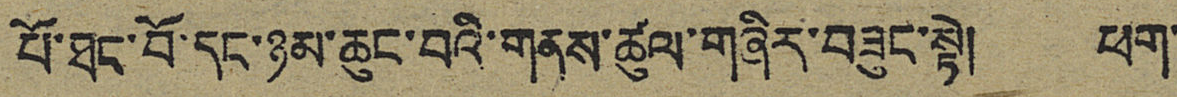པོ་ཐང་བོ་དང་ཉམ་ཆུང་བའི་གནས་ཚུལ་གཞིར་བཟུང་སྟེ། ཕག་
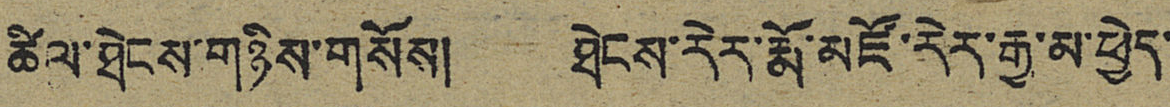ཚིལ་ཐེངས་གཉིས་གསོས། ཐེངས་རེར་རྨོ་མཛོ་རེར་རྒྱ་མ་ཕྱེད་
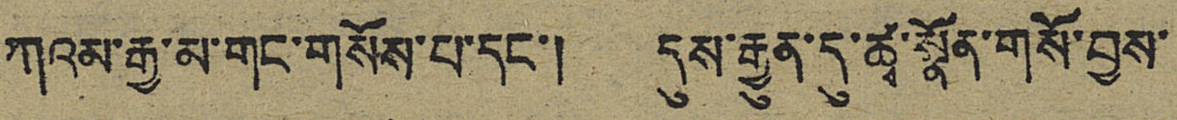ཀའམ་རྒྱ་མ་གང་གསོས་པ་དང་། དུས་རྒྱུན་དུ་ཚྭ་སྣོན་གསོ་བྱས་
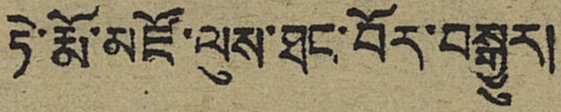ཏེ་རྨོ་མཛོ་ལུས་ཐང་བོར་བསྒྱུར།
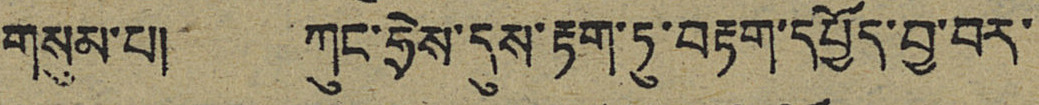གསུམ་པ། ཀུང་ཧྲེས་དུས་རྟག་ཏུ་བརྟག་དཔྱོད་བྱ་བར་
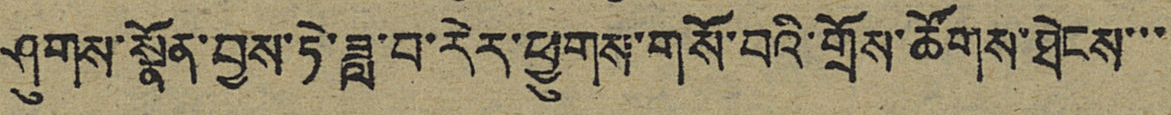ཤུགས་སྣོན་བྱས་ཏེ་ཟླ་བ་རེར་ཕྱུགས་གསོ་བའི་གྲོས་ཚོགས་ཐེངས་་་
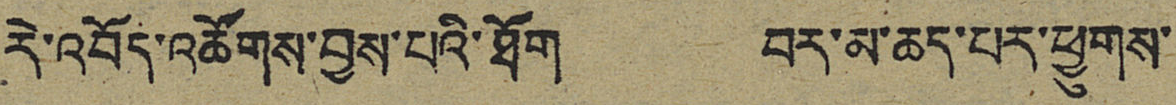རེ་འབོད་འཚོགས་བྱས་པའི་ཐོག བར་མ་ཆད་པར་ཕྱུགས་
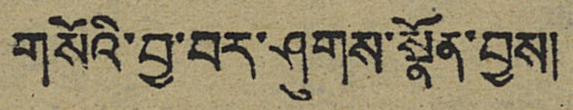གསོའི་བྱ་བར་ཤུགས་སྣོན་བྱས།
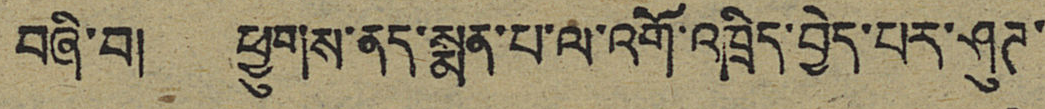བཞི་བ། ཕྱུགས་ནད་སྨན་པ་ལ་འགོ་འཁྲིད་བྱེད་པར་ཤུཊ་
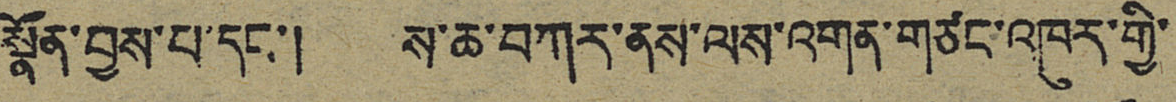སྣོན་བྱས་པ་དང་། ས་ཆ་བཀར་ནས་ལས་འགན་གཙང་འཁུར་གྱི་
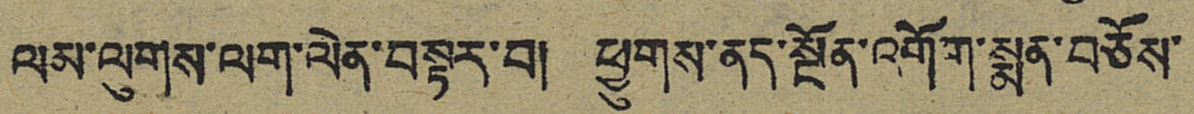ལམ་ལུགས་ལག་ལེན་བསྟར་བ། ཕྱུགས་ནད་སྔོན་འགོག་སྨན་བཅོས་
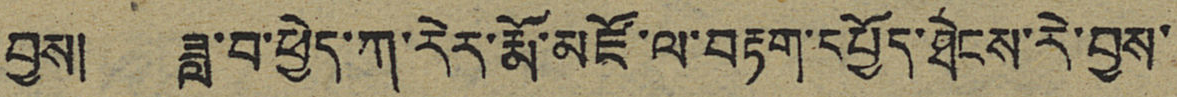བྱས། ཟླ་བ་ཕྱེད་ཀ་རེར་རྨོ་མཛོ་ལ་བརྟག་དཔྱོད་ཐེངས་རེ་བྱས་
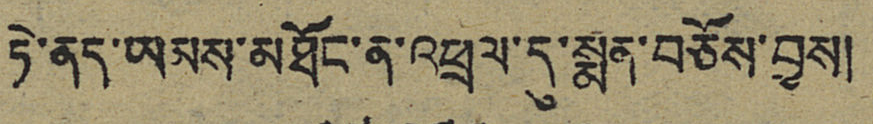ཏེ་ནད་ཡམས་མཐོང་ན་འཕྲལ་དུ་སྨན་བཅོས་བྱས།
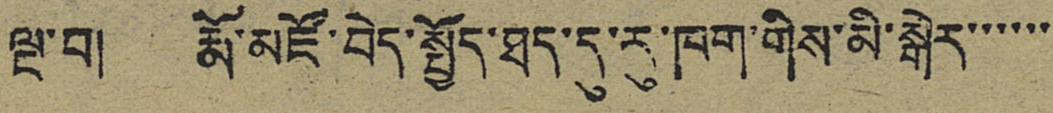ལྔ་བ། རྨོ་མཛོ་བེད་སྤྱོད་ཐད་དུ་རུ་ཁག་གིས་མི་སྒེར་་་་་་
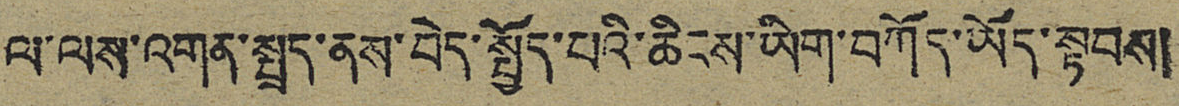ལ་ལས་འགན་སྤྲད་ནས་བེད་སྤྱོད་པའི་ཆིངས་ཡིག་བཀོད་ཡོད་སྟབས།
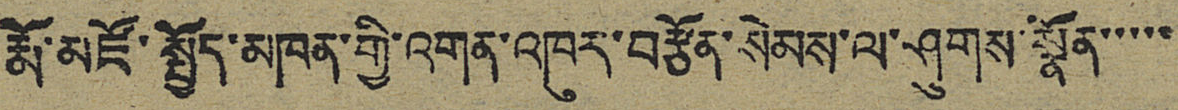རྨོ་མཛོ་སྤྱོད་མཁན་གྱི་འགན་འཁུར་བརྩོན་སེམས་ལ་ཤུགས་སྣོན་་་་་
